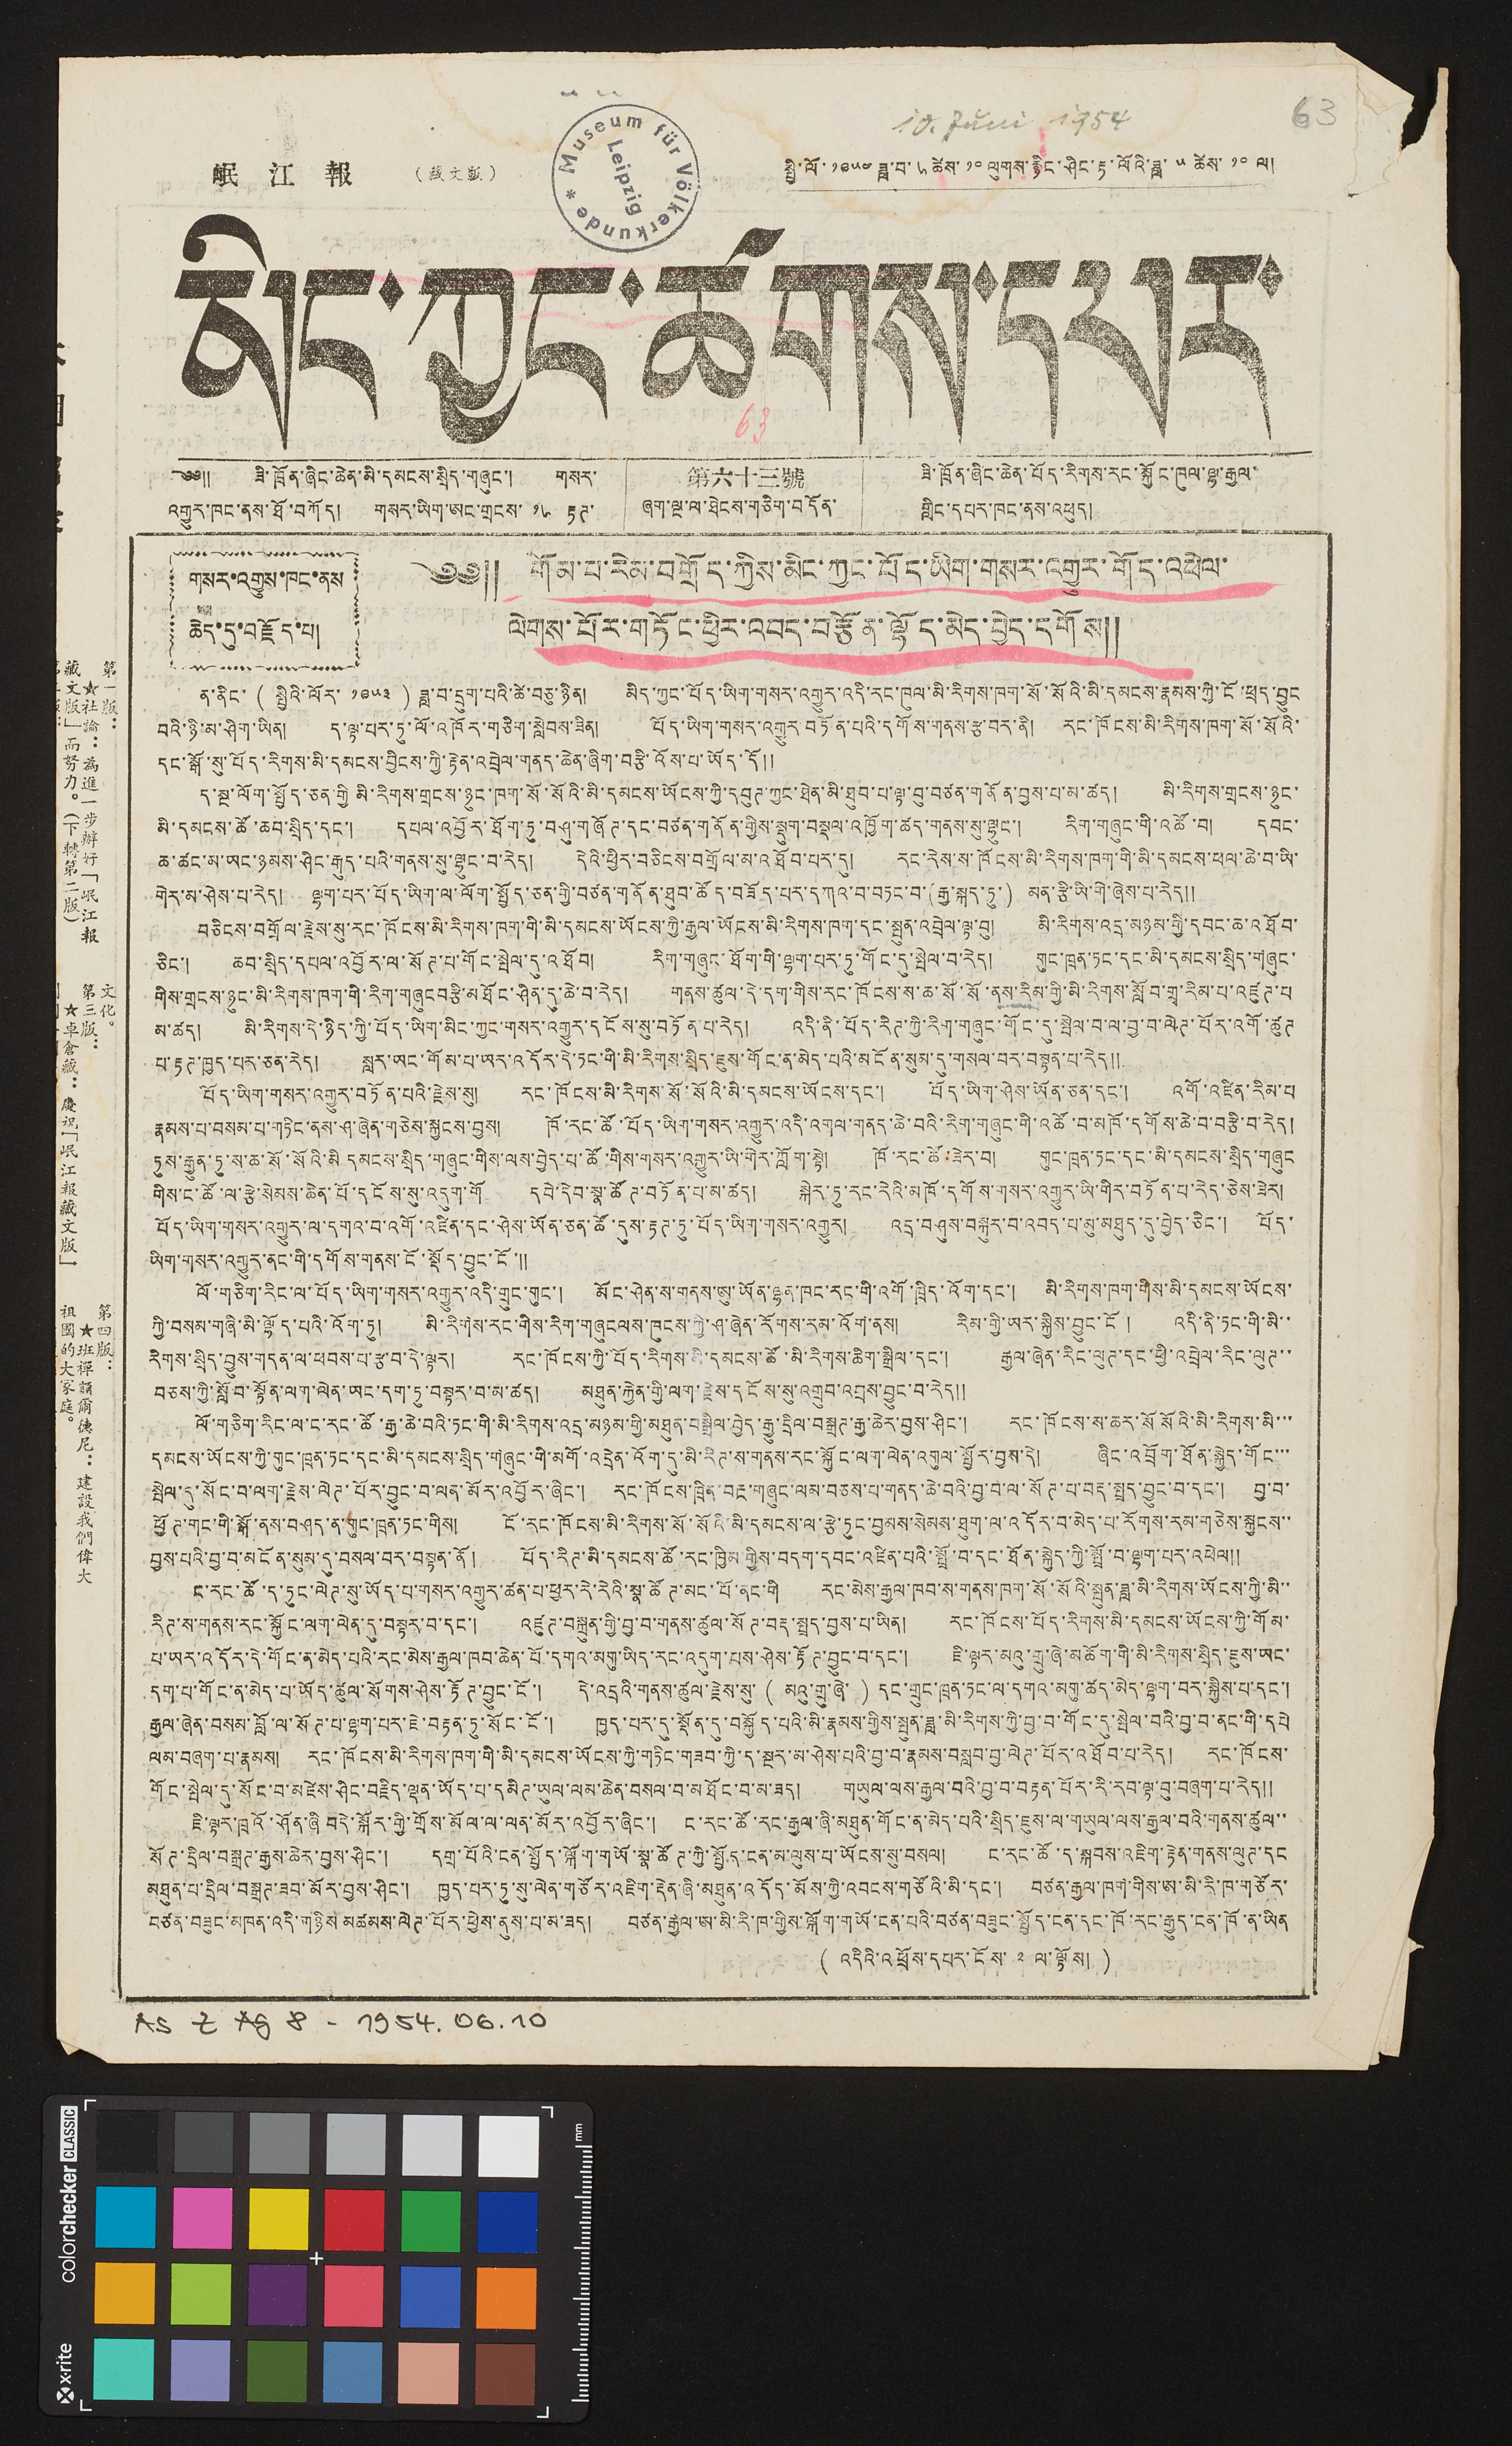岷 江 報 （ 藏文版) སྤྱི་ལོ་ ༡༩༥༤ ཟླ་བ་ ༦ ཚེས་ ༡༠ ལུགས་རྙིང་ཤིང་རྟ་ལོའི་ཟླ་ ༥ ཚེས་ ༡༠ ལ།
མིང་ཀྱང་ཚགས་དཔར་
༄༅༎ ཟི་ཁྲོན་ཞིང་ཆེན་མི་དམངས་སྲིད་གཞུང་། གསར་
འགྱུར་ཁང་ནས་ཐོ་བཀོད། གསར་ཡིག་ཨང་གྲངས་ ༡༦ རྟཊ་
第六十三號
ཞག་ལྔ་ལ་ཐེངས་གཅིག་བདོན་
ཟི་ཁྲོན་ཞིང་ཆེན་བོད་རིགས་རང་སྐྱོང་ཁུལ་ལྷ་རྒྱལ་
གླིང་དཔར་ཁང་ནས་འཕུད།
གསར་འགྱུས་ཁང་ནས
ཆེད་དུ་བརྗོད་པ།
༄༅༎ གོམ་པ་རེམ་བགྲོད་ཀྱིས་མིང་ཀྱང་བོད་ཡིག་གསར་འགྱུར་གོད་འཕེལ་
ལེགས་པོར་གཏོང་ཕྱིར་འབད་བརྩོན་ལྷོད་མེད་བྱེད་དགོས༎
ན་ནིང་ ( སྤྱིའི་ལོར་ ༡༩༥༣ ) ཟླ་བ་དྲུག་པའི་ཚེ་བཅུ་ཉིན། མིད་ཀྱང་བོད་ཡིག་གསར་འགྱུར་འདི་རང་ཁུལ་མི་རིགས་ཁག་སོ་སོའི་མི་དམངས་རྣམས་ཀྱི་ངོ་ཕྲད་བྱུང
བའི་ཉི་མ་ཤིག་ཡིན། ད་ལྟ་པར་ཏུ་ལོ་འཁོར་གཅིག་སླེབས་ཟིན། བོད་ཡིག་གསར་འགྱུར་བཏོན་པའི་དགོས་གནས་རྩ་བར་ནི། རང་ཁོངས་མི་རིགས་ཁག་སོ་སོའི་
དང་སྒོ་སུ་བོད་རིགས་མི་དམངས་བྱིངས་ཀྱི་རྟེན་འབྲེལ་གནད་ཆེན་ཞིག་བརྩི་འོས་པ་ཡོད་དོ།།
ད་སྔ་ལོག་སྤྱོད་ཅན་གྱི མི་རིགས་གྲངས་ཉུང་ཁག་སོ་སོའི་མི་དམངས་ཡོངས་ཀྱི་དབུཊ་ཀྱང་ཐེན་མི་ཐུབ་པ་ལྟ་བུ་བཙན་གནོན་བྱས་པ་མ་ཚད། མི་རིགས་གྲངས་ཉུང་
མི་དམངས་ཚོ་ཆབ་སྲིད་དང་། དཔལ་འབྱོར་ཐོག་ཏུ་བཤུ་གཞོཊ་དང་བཙན་གནོན་གྱིས་སྡུག་བསྡུལ་འཁྱོག་ཚད་གནས་སུ་ལྷུང་། རིག་གཞུང་གི་འཚོ་བ། དབང་
ཆ་ཚང་མ་ཡང་ཉམས་ཤིང་རྒུད་པའི་གནས་སུ་ལྷུང་བ་རེད། དེའི་ཕྱིར་བཅིངས་བགྲོལ་མ་འཐོབ་བར་དུ། རང་རེས་ས་ཁོངས་མི་རིགས་ཁག་གི་མི་དམངས་ཕལ་ཆེ་བ་ཡི་
གེར་མ་ཤེས་པ་རེད། ལྷག་པར་བོད་ཡིག་ལ་ལོག་སྤྱོད་ཅན་གྱི་བཙན་གནོན་ཐུབ་ཚོད་བཟོད་པར་དཀའ་བ་བཏང་བ་(རྒྱ་སྐད་ཏུ་) མན་རྩི་ཡི་གེ་ཞེས་པ་རེད།།
བཅིངས་བགྲོལ་རྗེས་སུ་རང་ཁོངས་མི་རིགས་ཁག་གི་མི་དམངས་ཡོངས་ཀྱི་རྒྱལ་ཡོངས་མི་རིགས་ཁག་དང་སྤུན་འབྲེལ་ལྟ་བུ། མི་རིགས་འདྲ་མཉམ་གྱི་དབང་ཆ་འཐོབ་
ཅིང་། ཆབ་སྲིད་དཔལ་འབྱོར་ལ་སོཊ་པ་གོང་སྤེལ་དུ་འཐོབ། རིག་གཞུང་ཐོག་གི་ལྷག་པར་ཏུ་གོང་དུ་སྤེལ་བ་རེད། གུང་ཁྲན་ཏང་དང་མི་དམངས་སྲིད་གཞུང་
གིས་གྲངས་ཉུང་མི་རིགས་ཁག་གི་རིག་གཞུང བརྩི་མཐོང་ཤིན་དུ་ཆེ་བ་རེད། གནས་ཚུལ་དེ་དག་གིས་རང་ཁོངས་ས་ཆ་སོ་སོ་ནས་རིམ་གྱི་མི་རིགས་སློབ་གྲྭ་རིམ་པ་འཛུཊ་པ་
མ་ཚད། མི་རིགས་དེ་ཉིད་ཀྱི་བོད་ཡིག་མིང་ཀྱང་གསར་འགྱུར་དངོས་སུ་བཏོན་པ་རེད། འདི་ནི་བོད་རིཊ་ཀྱི་རིག་གཞུང་གོང་དུ་སྤེལ་བ་ལ་བྱ་བ་ལེཊ་པོར་འགོ་ཚུཊ
པ་རྟཊ་ཁྱད་པར་ཅན་རེད། སླར་ཡང་གོམ་པ་ཡར་འདོར་དེ་ཏང་གི་མི་རིགས་སྲིད་ཇུས་གོང་ན་མེད་པའི་མངོན་སུམ་དུ་གསལ་བར་བསྟན་པ་རེད༎
བོད་ཡིག་གསར་འགྱུར་བཏོན་པའི་རྗེས་སུ། རང་ཁོངས་མི་རིགས་སོ་སོའི་མི་དམངས་ཡོངས་དང་། བོད་ཡིག་ཤེས་ཡོན་ཅན་དང་། འགོ་འཛིན་རིམ་པ
རྣམས་པ་བསམ་པ་གཏིང་ནས་ཤ་ཞེན་གཅེས་སྐྱངས་བྱས། ཁོ་རང་ཚོ་བོད་ཡིག་གསར་འགྱུར་འདི་འགལ་གནད་ཆེ་བའི་རིག་གཞུང་གི་འཚོ་བ་མཁོ་དགོས་ཆེ་བ་བརྩི་བ་རེད།
ཏུས་རྒྱུན་ཏུ་ས་ཆ་སོ་སོའི་མི དམངས་སྲིད་གཞུང་གིས་ལས་བྱེད་པ་ཚོ་གིས་གསར་འགྱུར་ཡི་གེར་ཀློག་སྟེ། ཁོ་རང་ཚོ་ཟེར་བ། གུང་ཁྲན་ཏང་དང་མི་དམངས་སྲིད་གཞུང
གིས་ང་ཚོ་ལ་རྩེ་སེམས་ཆེན་པོ་དངོས་སུ་འདུག་གོ དབེ་དེབ་སྣ་ཚོཊ་བཏོན་པ་མ་ཚད། སྐེར་ཏུ་རང་རེའི་མཁོ་དགོས་གསར་འགྱུར་ཡི་གིར་བཏོན་པ་རེད་ཅེས་ཟེར།
བོད་ཡིག་གསར་འགྱུར་ལ་དགའ་བ་འགོ་འཛིན་དང་ཤེས་ཡོན་ཅན་ཚོ་དུས་རྟཊ་ཏུ་བོད་ཡིག་གསར་འགྱུར། འདྲ་བཤུས་བསྐུར་བ་འབད་པ་མུ་མཐུད་དུ་བྱེད་ཅིང་། བོད་
ཡིག་གསར་འགྱུར་ནང་གི་དགོས་གནས་ངོ་སྡོད་བྱུང་ངོ་༎
ལོ་གཅིག་རིང་ལ་བོད་ཡིག་གསར་འགྱུར་འདི་གྲུང་གུང་། མོང་ཤེན་ས་གནས་ཨུ་ཡོན་ལྷན་ཁང་རང་གི་འགོ་འཁྲིད་འོག་དང་། མི་རིགས་ཁག་གིས་མི་དམངས་ཡོངས་
གྱི་བསམ་གཞི་མི་ལྷོད་པའི་འོག་ཏུ། མི་རིགས་རང་གིས་རིག་གཞུང ལས་ཁུངས་ཀྱི་ཤ་ཞེན་རོགས་རམ་འོག་ནས། རིམ་གྱི་ཡར་སྐྱིས་བྱུང་ངོ་། འདི་ནི་ཏང་གི་མི་་
རིགས་སྲིད་བྱུས་གདན་ལ་ཕབས་པ་རྩ་བ་དེ་ལྟར། རང་ཁོངས་ཀྱི་བོད་རིགས་མི་དམངས་ཚོ་རིགས་ཆིག་སྒྲིལ་དང་། རྒྱལ་ཞེན་ལུཊ་དང་ཕྱི་འབྲེལ་རིང་ལུཊ་་
བཅས་ཀྱི་སློབ་སྟོན་ལག་ལེན་ཡང་དག་ཏུ་བསྟར་བ་མ་ཚད། མཐུན་རྐྱེན་གྱི་ལག་རྗེས་དངོས་སུ་འགྲུབ་འབྲས་བྱུང་བ་རེད།།
ལོ་གཅིག་རིང་ལ་ང་རང་ཚོ་རྒྱ་ཆེ་བའི་ཏང་གི་མི་རིགས་འདྲ་མཉམ་གྱི་མཐུན་བསྒྲིལ་བྱེད་རྒྱུ་དྲིལ་བསྒྲཊ་རྒྱ་ཆེར་བྱས་ཤིང་། རང་ཁོངས་ས་ཆར་སོ སོའི་མི་རིགས་མི་་་
དམངས་ཡོངས་ཀྱི་གུང་ཁྲན་ཏང་དང་མི་དམངས་སྲིད་གཞུང་གི་མགོ་འདྲེན་འོག་དུ་མི་རིཊ་ས་གནས་རང་སྐྱོང་ལག་ལེན་འགུལ་སྦྱོར་བྱས་དེ། ཞིང་འབྲོག་ཐོན་སྐྱེད་གོང་་་
སྤེལ་དུ་སོང་བ་ལག་རྗེས་ལེཊ་པོར་བྱུང་བ་ལན་མོར་འབྱོར་ཞིང་། རང་ཁོངས་ཁྲིན་བརྔ་གཞུང་ལམ་བཅས་པ་གནད་ཆེ་བའི་བྱ་བ་ལ་སོཊ་པ་བརྡ་སྤྲད་བྱུང་བ་དང་། བྱ་བ་
ཕྱོཊ་གང་གི་སྒོ་ནས་བཤད་ན་གུང་ཁྲན་ཏང་གིས། ངོ་རང་ཁོངས་མི་རིགས་སོ་སོའི་མི་དམངས་ལ་རྩེ་ཏུང་བྱམས་སེམས་ཐུག་ལ་འདོར་བ་མེད་པ་རོགས་རམ་གཅེས་སྐྱངས་་
བྱས་པའི་བྱ་བ་མངོན་སུམ་དུ་བསལ་བར་བསྟན་ནོ། བོད་རིཊ་མི་དམངས་ཚོ་རང་ཁྱིམ གྱིས་བདག་དབང་འཛིན་པའི་སྤྲོ་བ་དང་ཐོན་སྐྱེད་ཀྱི་སྤྲོ་བ་ལྷག་པར་འཕེལ༎
ང་རང་ཚོ་ད་ཏུང་ལེཊ་སུ་ཡོད་པ་གསར་འགྱུར་ཚན་པ་ཕྱུར་རེ་རེའི་སྣ་ཚོཊ་མང་པོ་ནང་གི རང་མེས་རྒྱལ་ཁབ་ས་གནས་ཁག་སོ་སོའི་སྤུན་ཟླ་མི་རིགས་ཡོངས་ཀྱི་མི་་
རིཊ་ས་གནས་རང་སྐྱོང་ལག་ལེན་དུ་བསྟར་བ་དང་། འཛུཊ་བསྐྲུན་གྱི་བྱ་བ་གནས་ཚུལ་སོཊ་བརྡ་སྤྲད་བྱས་པ་ཡིན། རང་ཁོངས་བོད་རིགས་མི་དམངས་ཡོངས་ཀྱི་གོམ་
པ་ཡར་འདོར་དེ་གོང་ན་མེད་པའི་རང་མེས་རྒྱལ་ཁབ་ཆེན་པོ་དགའ་མགུ་ཡིད་རང་འདུག་པས་ཤེས་རྟོཊ་བྱུང་བ་དང་། ཇི་ལྟར་མའུ་གྲུ་ཞེ་མཆོག་གི་མི་རིགས་སྲིད་ཇུས་ཡང་
དག་པ་གོང་ན་མེད་པ་ཡོད་ཚུལ་སོགས་ཤེས་རྟོཊ་བྱུང་ངོ་། དེ་འདྲའི་གནས་ཚུལ་རྗེས་སུ་ ( མའུ་གྲུ་ཞེ་) དང་གྲུང་ཁྲན་ཏང་ལ་དགའ་མགུ་ཚད་མེད་ལྷག་བར་སྐྱིས་པ་དང་།
རྒྱལ་ཞེན་བསམ་བློ་ལ་སོཊ་པ་ལྷག་པར་ཇེ་བརྟན་ཏུ་སོང་ངོ་། ཁྱད་པར་དུ་སྡོན་དུ་བསྐྱོད་པའི་མི་རྣམས་གྱིས་སྤུན་ཟླ་མི་རིགས་ཀྱི་བྱ་བ་གོང་དུ་སྤེལ་བའི་བྱ་བ་ནང་གི་དཔེ
ལམ་བཞག་པ་རྣམས། རང་ཁོངས་མི་རིགས་ཁག་གི་མི་དམངས་ཡོངས་ཀྱི་གཏིང་གཟབ་ཀྱི་དུ་སྔར་མ་ཤེས་པའི་བྱ་བ་རྣམས་བསླབ་བྱ་ལེཊ་པོར་འཐོབ་པ་རེད། རང་ཁོངས་
གོང་སྤེལ་དུ་སོང་བ་མཛེས་ཤིང་བརྗིད་ལྡན་ཡོད་པ་དམིཊ་ཡུལ་ལམ་ཆེན་བསལ་བ་མཐོང་བ་མ་ཟད། གཡུལ་ལས་རྒྱལ་བའི་བྱ་བ་བརྟན་པོར་རི་རབ་ལྟ་བུ་བཞག་པ་རེད།།
ཇི་ལྟར་ཁྲའོ་ཤོན་ཞི བདེ་སྐོར་གྱི་གྲོས་མོལ་ལ་ལན་མོར་འབྱོར་ཞིང་། ང་རང་ཚོ་རང་རྒྱལ་ཞི་མཐུན་གོང་ན་མེད་པའི་སྲིད་ཇུས་ལ་གཡུལ་ལས་རྒྱལ་བའི་གནས་ཚུལ་་
སོཊ་དྲིལ་བསྒྲཊ་རྒྱས་ཆེར་བྱས་ཤིང་། དགྲ་པོའི་ངན་སྤྱོད་ལྐོག་གཡོ་སྣ་ཚོཊ་ཀྱི་སྤྱོད་ངན་མ་ལུས་པ་ཡོངས་སུ་བསལ། ང་རང་ཚོ་ད་སྐབས་འཇིག་རྟེན་གནས་ལུཊ་དང
མཐུན་པ་དྲིལ་བསྒྲཊ་ཟབ་མོར་བྱས་ཤིང་། ཁྱད་པར་ཏུ་སུ་ལེན་གཙོར་འཇིག་རྡེན་ཞི་མཐུན་འདོད་མོས་ཀྱི་འབངས་གཙོའི་མི་དང་། བཙན་རྒྱལ་ཁག་གིས་ཨ་མི་རི་ཁ་གཙོར་
བཙན་བཟུང་མཁན་འདི་གཉིས་མཚམས་ལེཊ་པོར་ཕྱེས་ནུས་པ་མ་ཟད། བཙན་རྒྱལ་ཨ་མི་རི་ཁ་གྱིས་ལྐོག་གཡོ་ངན་པའི་བཙན་བཟུང་སྤྱོད་ངན་དང་ཁོ་རང་རྒྱུད་ངན་ཁོ་ན་ཡིན
( འདིའི་འཕྲོས་དཔར་ངོས་ ༢ ལ་ལྟོས། )
第一版：
★社論：爲進一步辦好「岷江報
藏文版」而努力。（下轉第二版）
文化。
第三版：
★卓倉藏：慶祝「岷江報藏文版」
第四版：
★班禪額爾德尼：建設我們偉大
祖國的大家庭。
